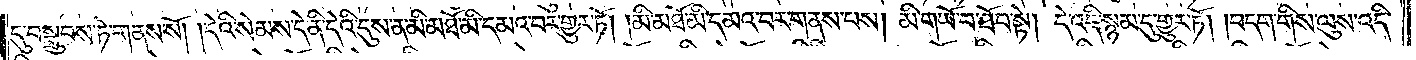དུ་བསྒྲུབས་ཏེ་གནས་སོ། །དེའི་སེམས་དེ་ནི་དེའི་དུས་ན་མི་མཐོ་མི་དམའ་བར་གྱུར་ཏོ། །མི་མཐོ་མི་དམའ་བར་གནས་པས། མི་གཡོ་བ་ཐོབ་སྟེ། དེ་འདི་སྙམ་དུ་གྱུར་ཏོ། །བདག་གིས་ལུས་འདི་
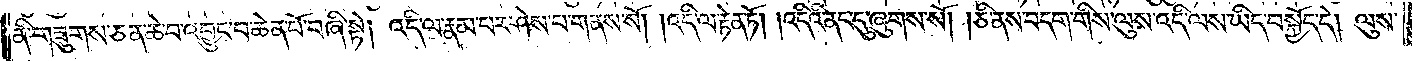ནི་གཟུགས་ཅན་ཆེ་བ་འབྱུང་བ་ཆེན་པོ་བཞི་སྟེ། འདི་ལ་རྣམ་པར་ཤེས་པ་གནས་སོ། །འདི་ལ་རྟེན་ཏོ། །འདིའི་ནང་དུ་ཞུགས་སོ། །ཅི་ནས་བདག་གིས་ལུས་འདི་ལས་ཡིད་བསྐྱོད་དེ། ལུས་
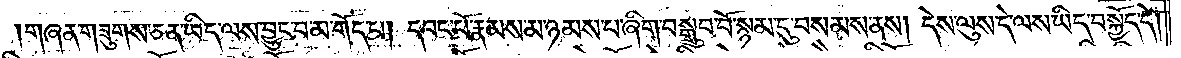གཞན་གཟུགས་ཅན་ཡིད་ལས་བྱུང་བ་མ་གོད་པ། དབང་པོ་རྣམས་མ་ཉམས་པ་ཞིག་བསྒྲུབ་བོ་སྙམ་དུ་བསམས་ནས། དེས་ལུས་དེ་ལས་ཡིད་བསྐྱོད་དེ།
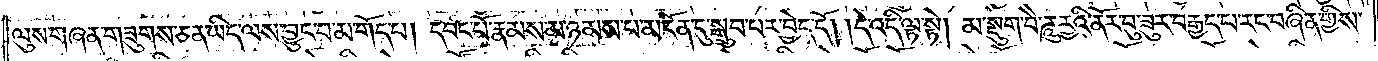ལུས་གཞན་གཟུགས་ཅན་ཡིད་ལས་བྱུང་བ་མ་གོད་པ། དབང་པོ་རྣམས་མ་ཉམས་པ་མངོན་དུ་སྒྲུབ་པར་བྱེད་དོ། །དེ་འདི་ལྟ་སྟེ། མ་སྡུག་བཻ་ཌཱུཪྻའི་ནོར་བུ་ཟུར་བརྒྱད་པ་རང་བཞིན་གྱིས་
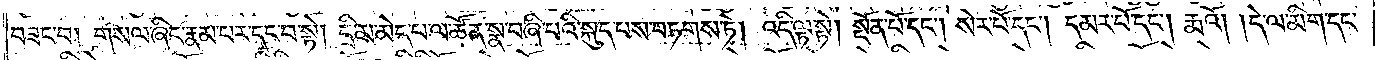བཟང་བ། གསལ་ཞིང་རྣམ་པར་དང་བ་སྟེ། དྲི་མ་མེད་པ་ལ་ཚོན་སྣ་བཞི་པའི་སྐུད་པས་བཏགས་ཏེ། འདི་ལྟ་སྟེ། སྔོན་པོ་དང༌། སེར་པོ་དང༌། དམར་པོ་དང༌། རྨའོ། །དེ་ལ་མིག་དང་
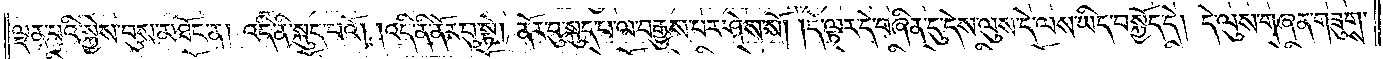ལྡན་པའི་སྐྱེས་བུས་མཐོང་ན། འདི་ནི་སྐུད་པའོ། །འདི་ནི་ནོར་བུ་སྟེ། ནོར་བུ་སྐུད་པ་ལ་བརྒྱུས་པར་ཤེས་སོ། །དེ་ལྟར་དེ་བཞིན་དུ་དེས་ལུས་དེ་ལས་ཡིད་བསྐྱོད་དེ། དེ་ལུས་གཞན་གཟུགས་
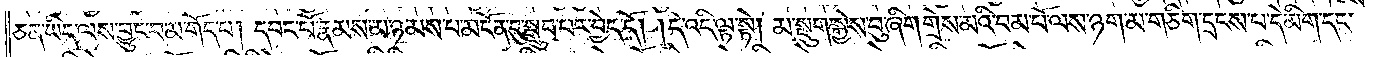ཅན་ཡིད་ལས་བྱུང་བ་མ་གོད་པ། དབང་པོ་རྣམས་མ་ཉམས་པ་མངོན་དུ་སྒྲུབ་པར་བྱེད་དོ། །དེ་འདི་ལྟ་སྟེ། མ་སྡུག་སྐྱེས་བུ་ཞིག་གྲེས་མའི་བམ་པོ་ལས་ཉག་མ་གཅིག་དྲངས་པ་དེ་མིག་དང་
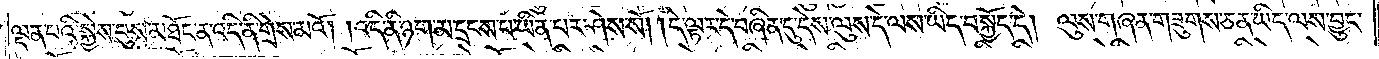ལྡན་པའི་སྐྱེས་བུས་མཐོང་ན་འདི་ནི་གྲེས་མའོ། །འདི་ནི་ཉག་མ་དྲངས་པ་ཡིན་པར་ཤེས་སོ། །དེ་ལྟར་དེ་བཞིན་དུ་དེས་ལུས་དེ་ལས་ཡིད་བསྐྱོད་དེ། ལུས་གཞན་གཟུགས་ཅན་ཡིད་ལས་བྱུང་
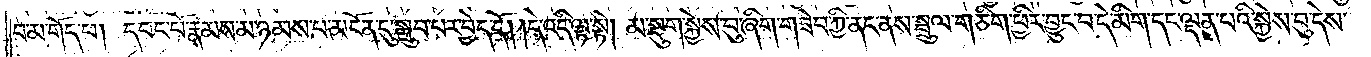བ་མ་གོད་པ། དབང་པོ་རྣམས་མ་ཉམས་པ་མངོན་དུ་སྒྲུབ་པར་བྱེད་དོ། །དེ་འདི་ལྟ་སྟེ། མ་སྡུག་སྐྱེས་བུ་ཞིག་གཟེབ་ཀྱི་ནང་ནས་སྦྲུལ་གཅིག་ཕྱིར་བྱུང་བ་དེ་མིག་དང་ལྡན་པའི་སྐྱེས་བུ་དེས་
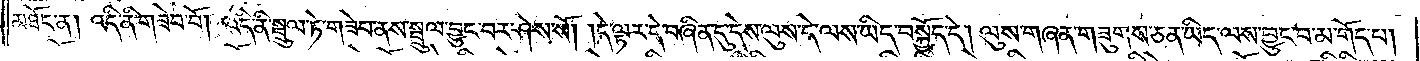མཐོང་ན། འདི་ནི་གཟེབ་བོ། འདི་ནི་སྦྲུལ་ཏེ་གཟེབ་ནས་སྦྲུལ་བྱུང་བར་ཤེས་སོ། །དེ་ལྟར་དེ་བཞིན་དུ་དེས་ལུས་དེ་ལས་ཡིད་བསྐྱོད་དེ། ལུས་གཞན་གཟུགས་ཅན་ཡིད་ལས་བྱུང་བ་མ་གོད་པ།
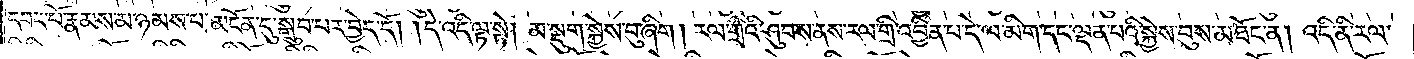དབང་པོ་རྣམས་མ་ཉམས་པ་མངོན་དུ་སྒྲུབ་པར་བྱེད་དོ། །དེ་འདི་ལྟ་སྟེ། མ་སྡུག་སྐྱེས་བུ་ཞིག །རལ་གྲིའི་ཤུབས་ནས་རལ་གྲི་འབྱིན་པ་དེ་ལ་མིག་དང་ལྡན་པའི་སྐྱེས་བུས་མཐོང་ན། འདི་ནི་རལ་
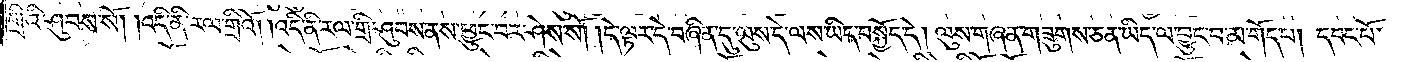གྲིའི་ཤུབས་སོ། །འདི་ནི་རལ་གྲིའོ། །འདི་ནི་རལ་གྲི་ཤུབས་ནས་ཕྱུང་བར་ཤེས་སོ། །དེ་ལྟར་དེ་བཞིན་དུ་ལུས་དེ་ལས་ཡིད་བསྐྱོད་དེ། ལུས་གཞན་གཟུགས་ཅན་ཡིད་ལ་བྱུང་བ་མ་གོད་པ། དབང་པོ་
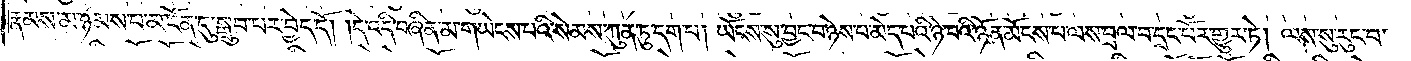རྣམས་མ་ཉམས་པ་མངོན་དུ་སྒྲུབ་པར་བྱེད་དོ། །དེ་འདི་བཞིན་མ་གཡེངས་པའི་སེམས་ཀུན་ཏུ་དག་པ། ཡོངས་སུ་བྱང་བ་ཉེས་པ་མེད་པའི་ཉེ་བའི་ཉོན་མོངས་པ་ལས་བྲལ་བ་དྲང་པོར་གྱུར་ཏེ། ལས་སུ་རུང་བ་
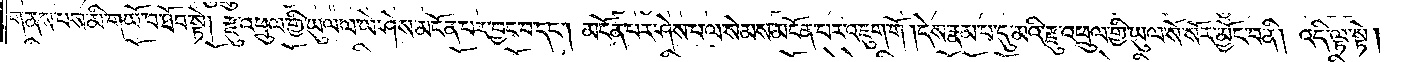གནས་པས་མི་གཡོ་བ་ཐོབ་སྟེ། རྫུ་འཕྲུལ་གྱི་ཡུལ་ལ་ཡེ་ཤེས་མངོན་པར་བྱང་བ་དང༌། མངོན་པར་ཤེས་པ་ལ་སེམས་མངོན་པར་འཇུག་གོ །དེས་རྣམ་པ་དུ་མའི་རྫུ་འཕྲུལ་གྱི་ཡུལ་སོ་སོར་མྱོང་བ་ནི། འདི་ལྟ་སྟེ།
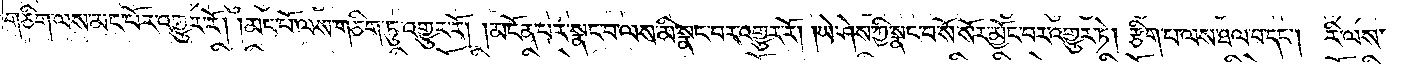གཅིག་ལས་མང་པོར་འགྱུར་རོ། །མང་པོ་ལས་གཅིག་ཏུ་འགྱུར་རོ། །མངོན་པར་སྣང་བ་ལས་མི་སྣང་བར་འགྱུར་རོ། །ཡེ་ཤེས་ཀྱི་སྣང་བ་སོ་སོར་མྱོང་བར་འགྱུར་ཏེ། རྩིག་པ་ལས་ཐལ་བ་དང༌། རི་ལས་
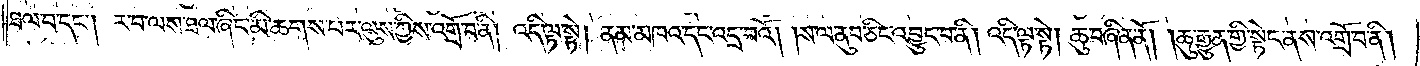ཐལ་བ་དང༌། ར་བ་ལས་ཐལ་ཞིང་མི་ཆགས་པར་ལུས་ཀྱིས་འགྲོ་བ་ནི། འདི་ལྟ་སྟེ། ནམ་མཁའ་དང་འདྲ་བའོ། །ས་ལ་ནུབ་ཅིང་འབྱུང་བ་ནི། འདི་ལྟ་སྟེ། ཆུ་བཞིན་ནོ། །ཆུ་རྒྱུན་གྱི་སྟེང་ནས་འགྲོ་བ་ནི།
